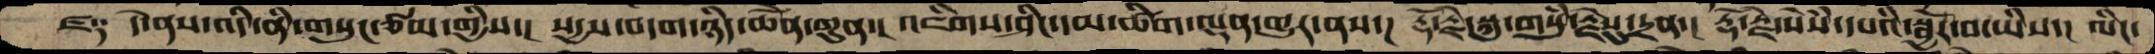ཛ༑  དེ་ནས་འདི་ནི་གསུང་ཙམ་གྱིས་།  སདྱས་བདག་ཉིད་ཆེནོ་ཀུན་།  འཇིགས་ཤིང་དམ་ཚིག་ལྡན་གྱུར་ནས་།  རྡོ་རྗེ་སྐུ་གསུམ་རྗེསུ་དྲན་།  རྡོ་རྗེ་སེཾས་དཔའི་སྦྱོར་བ་ཡིས་།  ལིང་
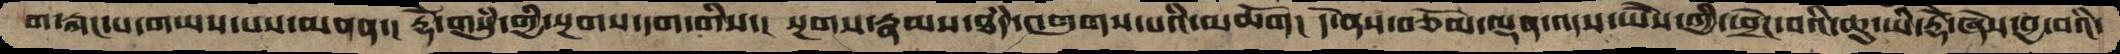ག་རྐང་པ་གཡས་པས་མནན་།  རྡོེ་གསུཾ་གྱི་སྔགས་དག་གིས་།  སྔགས་རྣམས་ཐཾད་འགུགས་པའི་མཆོག།  དེ་ནས་བཅོམ་ལྡན་འདས་ཡཻས་ཀྱི་ཕྲེང་བའི་ཆུ་ཡི་རྡོེ་ཞེས་བྱ་བའི་
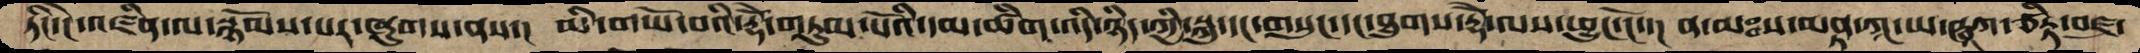ཏིང་ངེ་འཛིན་ལ་སྙོམས་པར་ཞུགས་ནས་།  མི་གཡོ་བའི་རྡོེ་གཏུམ་པོའི་དམ་ཚིག་འདི་ཉིད་ཀྱི་སྐུ་དང་གསུང་དང་ཐུགས་རྡོེ་ལས་ཕྱུང་ངོ་་།  ན་མཿས་མནྟ་ཀཱ་ཡ་ཝཱཀ་ཙིཏྟ་བཛྲ་
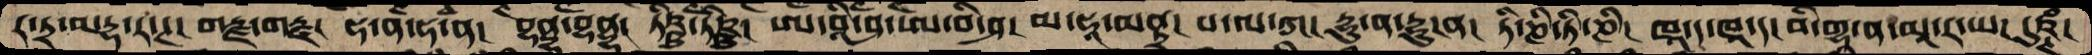ར་ཏྲ་མདྷ་ར་ཊ།  གརྫ་གརྫ།  ཧ་ན་ཧ་ན།  བྷནྡྷ་བྷནྡྷ།  ཏིཥྠ་ཏིཥྠ།  ཨ་བཱི་ཤ་ཨ་བི་ཤ།  མ་ཧཱ་མནྟྲ།  པ་ལ་ཀ།  དྷུ་ན་དྷུ་ན།  ཏི་ཎི་ཏི་ཎི།  ཁཱ་ད་ཁཱ་ད།  བི་གྷ་ན་མཱ་ར་ཡ། དུཥྚཾ།
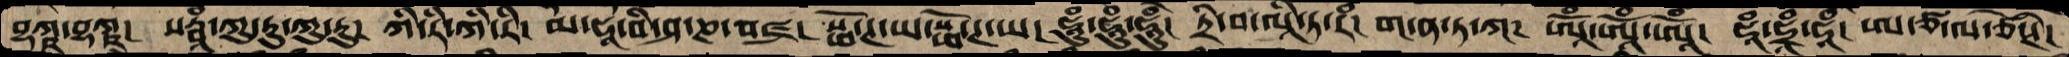བྷཀྵ་བྷཀྵ།  སརྦཱཾ་ཀུ་རུ་ཀུ་རུ།  ཀི་རི་ཀི་རི།  མ་ཧཱ་བི་ཤ་ཎ་བཛྲ།  སྥོ་ཊ་ཡ་སྥོ་ཊ་ཡ།  ཧཱུཾ་ཧཱུཾ་ཧཱུཾ།  ཏྲི་བ་ལཱི་ཏ་རཾ།  ག་ན་ཏ་ཀ།  ཨཱོཾ་ཨཱོཾ་ཨཱོཾ།  ཧཱཾ་ཧཱཾ་ཧཱཾ། ཨ་ཙ་ལ་ཙེ་ཊི།
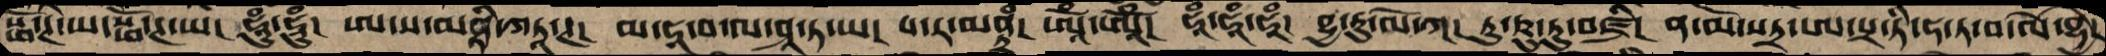སྥོ་ཊི་ཡ་སྥོ་ཊ་ཡ།  ཧཱུཾ་ཧཱུཾ།  ཨ་ས་མནྟིཀཏཱ་ཊ།  མ་ཧཱ་བ་ལ་ཤཱ་ཏ་ཡ། པ་ར་མནྟྲཾ།  ཨཱོཾ་ཨཱོཾ།  ཧཱཾ་ཧཱཾ་ཧཱཾ།  བྷྱ་རུ་ལོཀ།  ཏུ་ཥུ་རུ་བཛྲི།  ན་མོ་སཏྲ་ཨ་པྲ་ཏི་ཧ་ཏ་བ་ལེཾ་བྷྱེ་
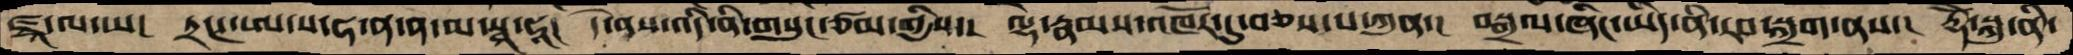ཛྭཱ་ལ་ཡ།  ཏྲ་ཊ་ཨ་ས་ཧ་ན་ན་མ་སྭཱ་ཧཱ།  དེ་ནས་འདི་ནི་གསུང་ཙམ་གྱིས་།  ལྷ་རྣམས་འཁོར་དུ་བཅས་པ་ཀུན་།  བསྒྲལ་ཞིང་ཡིད་ནི་རབ་སྐྲག་ནས་།  རྡོེ་སྐུ་ནི་
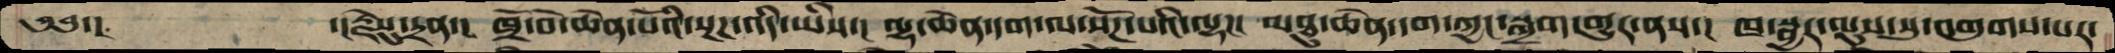༄༅་།        ་།རྗེསུ་དྲན་། ཁྲོ་བོ་ཆེན་པོའི་སྔཌ་འདི་ཡིས་། ལྷ་ཆེན་དག་ལ་སོཌ་པའི་ལྷ།།། མཐུ་ཆེན་དག་ཀྱང་སྐྲག་གྱུར་ནས་། ཁ་སྦྱར་ལུས་སུ་འགུགས་པར་
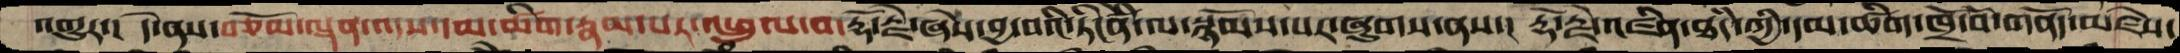འགྱུར་། དེ་ནས་བཅོམ་ལྡན་འདས་དམ་ཚིག་རྣམ་པར་འཕྲུལ་བ་རྡོ་རྗེ་ཞེས་བྱ་བའི་ཏིངེཛིན་ལ་སྙོམས་པར་ཞུགས་ནས་། རྡོ་རྗེ་འཛིན་ཐཾད་ཀྱི་དམ་ཚིག་ཁྲོ་བོ་གནོད་མཛེས་
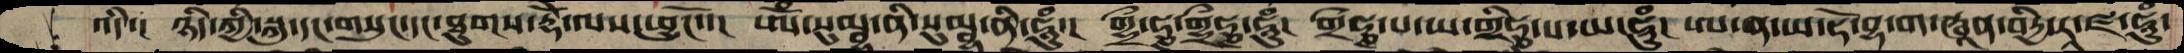འདི་།  ཉིད་ཀྱི་སྐུ་དང་གསུང་དང་ཐུགས་རྡོཻ་ལས་ཕྱུངོ་་། ཨོཾ་སུམྦྷ་ནི་སུམྦྷ་ནི་ཧཱུཾ་།  གྲྀཧྞ་གྷྲྀཧྞ་ཧཱུཾ་  གྲྀཧྞ་པ་ཡ་གྲྀཧྞ་པ་ཡ་ཧཱུཾ།  ཨ་ན་ཡ་ཧོ་བྷ་ག་ཝཱན་བིཏྱ་རཱ་ཛ་ཧཱུཾ་
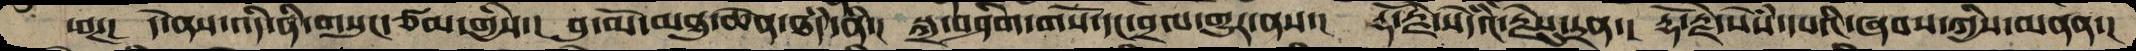ཕཊ།  དེ་ནས་འདི་ནི་གསུང་ཙམ་གྱིས་།  བུ་མོ་མཐུ་ཆེན་ཐཾད་ནི་།  སྐྲ་བཤིག་གོས་དང་བྲལ་གྱུར་ནས་།  རྡོ་རྗེ་སེདའཾ་རྗེསུ་དྲན་། རྡོ་རྗེ་སེསཾ་དཔའི་ཞབས་ཀྱིས་མནན་།
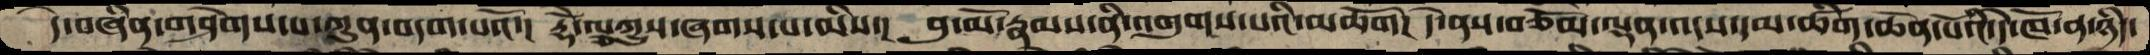དེ་བཞིན་གཤེགས་པ་ཀུན་བདག་པའོ་། རྡོེ་ལྕཀྱུས་ཞགས་པ་ཡིས་།  བུ་མོ་རྣམས་ནི་འགུགས་པའི་མཆོག། དེ་ནས་བཅོམ་ལྡན་འདས་དམ་ཚིག་ཆེན་པོའི་དེ་ཁོ་ན་ཉིད་
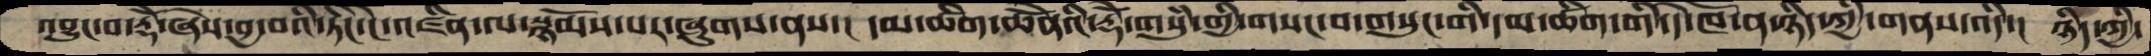འབྱུང་བ་རྡོེ་ཞེས་བྱ་བའི་ཏིང་ངེ་འཛིན་ལ་སྙོམས་པར་ཞུགས་ནས་།  དམ་ཚིག་ཆེནོའི་རྡོེ་གསུཾ་གྱི་གསང་བ་གསུང་གི་དམ་ཚིག་གི་དེ་ཁོ་ན་ཉིད་ཀྱི་གནས་འདི་།  ཉིད་ཀྱི་
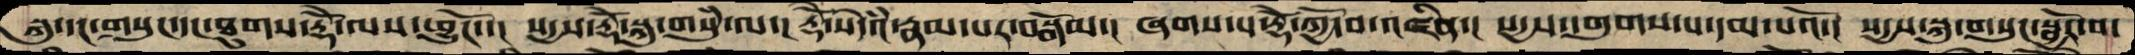སྐུ་དང་གསུང་དང་ཐུགས་རྡོེ་ལས་ཕྱུངོ་་།  སདྱས་རྡོེ་སྐུ་གསུཾ་ལ་།  རྡོེ་སེདའཾ་རྣམ་པར་བསྒོམ་།  ཞགས་པ་རྡོེ་ཀྱོ་བ་འཛིན་།  སདྱས་དགུགས་པ་དམ་པའོ་།  སདྱས་སྐུ་གསུང་སྦྱོར་བ་
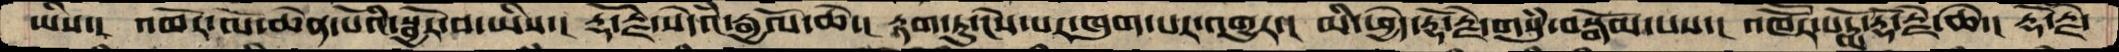ཡིས་།  འཁོར་ལོ་ཆེན་པོའི་སྦྱོར་བ་ཡིས་།  རྡོ་རྗེ་སེདའཾ་རྒྱལོ་ཆེ་།  རྟག་ཏུ་ངེས་པར་ཁུག་པར་འགྱུར་།  མི་ཕྱེད་རྡོ་རྗེ་གསུཾ་བསྒོམ་པས་།  འཁཽར་པདྨ་རྡོ་རྗེ་ཆེ་།  རྡོ་རྗེ་
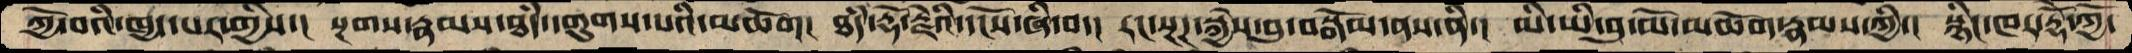ཀྱོ་བའི་ཁྱད་པར་གྱིས་།  སྔགས་རྣམས་ཐཾད་དགུགས་པའི་མཆོག།  ཐཾད་རྡོ་རྗེའི་དངོས་ཞི་བ་།  རང་སྔཌ་སྐྱེས་བུ་བསྒོམ་ནས་ནི་།  མི་ཡི་བུ་མོ་མཆོག་རྣམས་ཀྱི་།  སྙིང་ཁར་རྡོེ་ཀྱོ་
